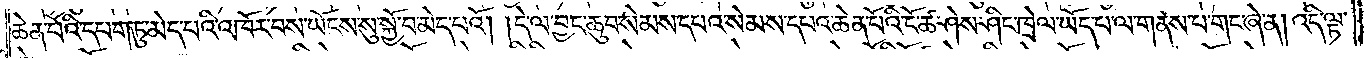ཆེན་པོའི་དཔག་ཏུ་མེད་པའི་འཁོར་བས་ཡོངས་སུ་སྐྱོ་བ་མེད་པའོ། །དེ་ལ་བྱང་ཆུབ་སེམས་དཔའ་སེམས་དཔའ་ཆེན་པོའི་ངོ་ཚ་ཤེས་ཤིང་ཁྲེལ་ཡོད་པ་ལ་གནས་པ་གང་ཞེ་ན། འདི་ལྟ་
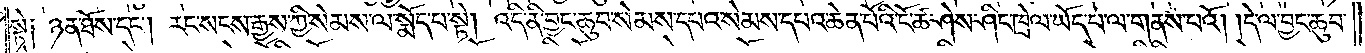སྟེ། ཉན་ཐོས་དང༌། རང་སངས་རྒྱས་ཀྱི་སེམས་ལ་སྨོད་པ་སྟེ། འདི་ནི་བྱང་ཆུབ་སེམས་དཔའ་སེམས་དཔའ་ཆེན་པོའི་ངོ་ཚ་ཤེས་ཤིང་ཁྲེལ་ཡོད་པ་ལ་གནས་པའོ། །དེ་ལ་བྱང་ཆུབ་
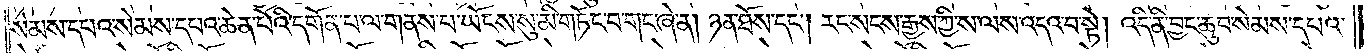སེམས་དཔའ་སེམས་དཔའ་ཆེན་པོའི་དགོན་པ་ལ་གནས་པ་ཡོངས་སུ་མི་བཏང་བ་གང་ཞེ་ན། ཉན་ཐོས་དང༌། རང་སངས་རྒྱས་ཀྱི་ས་ལས་འདའ་བ་སྟེ། འདི་ནི་བྱང་ཆུབ་སེམས་དཔའ་
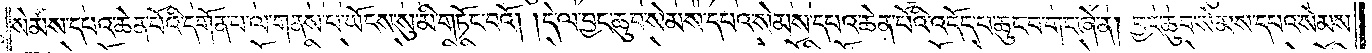སེམས་དཔའ་ཆེན་པོའི་དགོན་པ་ལ་གནས་པ་ཡོངས་སུ་མི་བཏང་བའོ། །དེ་ལ་བྱང་ཆུབ་སེམས་དཔའ་སེམས་དཔའ་ཆེན་པོའི་འདོད་པ་ཆུང་བ་གང་ཞེ་ན། བྱང་ཆུབ་སེམས་དཔའ་སེམས་
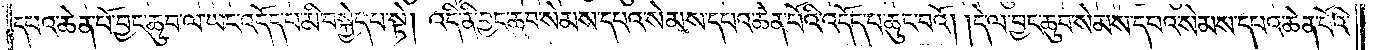དཔའ་ཆེན་པོ་བྱང་ཆུབ་ལ་ཡང་འདོད་པ་མི་བསྐྱེད་པ་སྟེ། འདི་ནི་བྱང་ཆུབ་སེམས་དཔའ་སེམས་དཔའ་ཆེན་པོའི་འདོད་པ་ཆུང་བའོ། །དེ་ལ་བྱང་ཆུབ་སེམས་དཔའ་སེམས་དཔའ་ཆེན་པོའི་
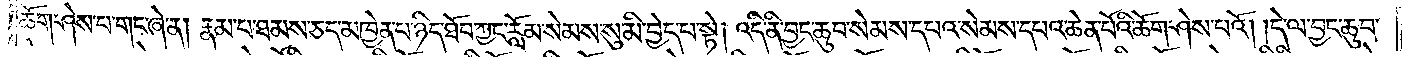ཆོག་ཤེས་པ་གང་ཞེ་ན། རྣམ་པ་ཐམས་ཅད་མཁྱེན་པ་ཉིད་ཐོབ་ཀྱང་རློམ་སེམས་སུ་མི་བྱེད་པ་སྟེ། འདི་ནི་བྱང་ཆུབ་སེམས་དཔའ་སེམས་དཔའ་ཆེན་པོའི་ཆོག་ཤེས་པའོ། །དེ་ལ་བྱང་ཆུབ་
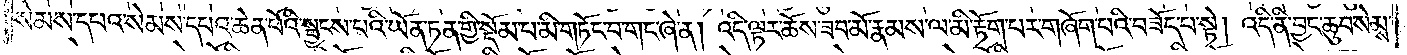སེམས་དཔའ་སེམས་དཔའ་ཆེན་པོའི་སྦྱངས་པའི་ཡོན་ཏན་གྱི་སྡོམ་པ་མི་གཏོང་བ་གང་ཞེ་ན། འདི་ལྟར་ཆོས་ཟབ་མོ་རྣམས་ལ་མི་རྟོག་པར་གཞོག་པའི་བཟོད་པ་སྟེ། འདི་ནི་བྱང་ཆུབ་སེམས་
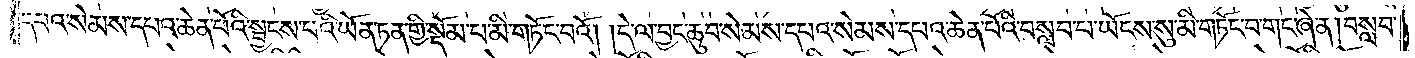དཔའ་སེམས་དཔའ་ཆེན་པོའི་སྦྱངས་པའི་ཡོན་ཏན་གྱི་སྡོམ་པ་མི་གཏོང་བའོ། །དེ་ལ་བྱང་ཆུབ་སེམས་དཔའ་སེམས་དཔའ་ཆེན་པོའི་བསླབ་པ་ཡོངས་སུ་མི་གཏོང་བ་གང་ཞེ་ན། བསླབ་
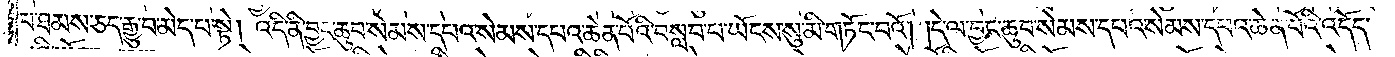པ་ཐམས་ཅད་རྒྱུ་བ་མེད་པ་སྟེ། འདི་ནི་བྱང་ཆུབ་སེམས་དཔའ་སེམས་དཔའ་ཆེན་པོའི་བསླབ་པ་ཡོངས་སུ་མི་བཏོང་བའོ། །དེ་ལ་བྱང་ཆུབ་སེམས་དཔའ་སེམས་དཔའ་ཆེན་པོའི་འདོད་
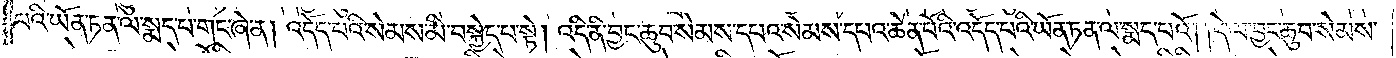པའི་ཡོན་ཏན་ལ་སྨད་པ་གང་ཞེ་ན། འདོད་པའི་སེམས་མི་བསྐྱེད་པ་སྟེ། འདི་ནི་བྱང་ཆུབ་སེམས་དཔའ་སེམས་དཔའ་ཆེན་པོའི་འདོད་པའི་ཡོན་ཏན་ལ་སྨད་པའོ། །དེ་ལ་བྱང་ཆུབ་སེམས་
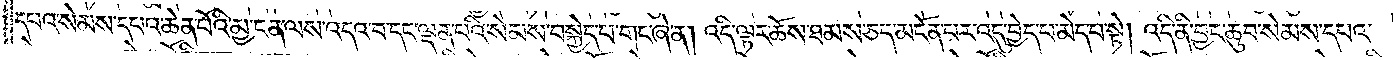དཔའ་སེམས་དཔའ་ཆེན་པོའི་མྱ་ངན་ལས་འདའ་བ་དང་ལྡན་པའི་སེམས་བསྐྱེད་པ་གང་ཞེ་ན། འདི་ལྟར་ཆོས་ཐམས་ཅད་མངོན་པར་འདུ་བྱེད་པ་མེད་པ་སྟེ། འདི་ནི་བྱང་ཆུབ་སེམས་དཔའ་
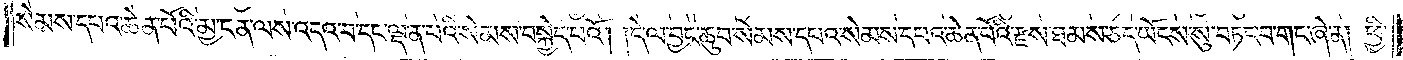སེམས་དཔའ་ཆེན་པོའི་མྱ་ངན་ལས་འདའ་བ་དང་ལྡན་པའི་སེམས་བསྐྱེད་པའོ། །དེ་ལ་བྱང་ཆུབ་སེམས་དཔའ་སེམས་དཔའ་ཆེན་པོའི་རྫས་ཐམས་ཅད་ཡོངས་སུ་བཏང་བ་གང་ཞེ་ན། ཕྱི་
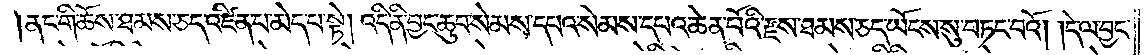ནང་གི་ཆོས་ཐམས་ཅད་འཛིན་པ་མེད་པ་སྟེ། འདི་ནི་བྱང་ཆུབ་སེམས་དཔའ་སེམས་དཔའ་ཆེན་པོའི་རྫས་ཐམས་ཅད་ཡོངས་སུ་བཏང་བའོ། །དེ་ལ་བྱང་
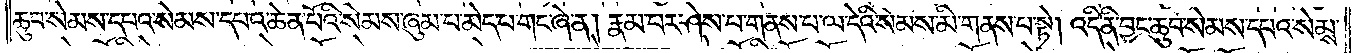ཆུབ་སེམས་དཔའ་སེམས་དཔའ་ཆེན་པོའི་སེམས་ཞུམ་པ་མེད་པ་གང་ཞེ་ན། རྣམ་པར་ཤེས་པ་གནས་པ་ལ་དེའི་སེམས་མི་གནས་པ་སྟེ། འདི་ནི་བྱང་ཆུབ་སེམས་དཔའ་སེམས་
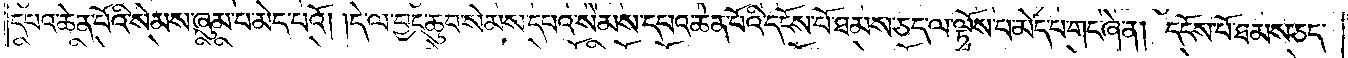དཔའ་ཆེན་པོའི་སེམས་ཞུམ་པ་མེད་པའོ། །དེ་ལ་བྱང་ཆུབ་སེམས་དཔའ་སེམས་དཔའ་ཆེན་པོའི་དངོས་པོ་ཐམས་ཅད་ལ་ལྟོས་པ་མེད་པ་གང་ཞེ་ན། དངོས་པོ་ཐམས་ཅད་
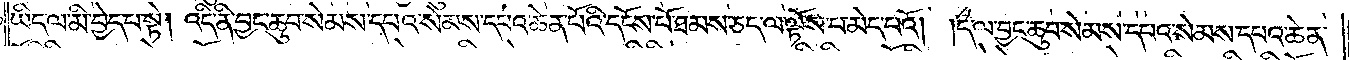ཡིད་ལ་མི་བྱེད་པ་སྟེ། འདི་ནི་བྱང་ཆུབ་སེམས་དཔའ་སེམས་དཔའ་ཆེན་པོའི་དངོས་པོ་ཐམས་ཅད་ལ་ལྟོས་པ་མེད་པའོ། །དེ་ལ་བྱང་ཆུབ་སེམས་དཔའ་སེམས་དཔའ་ཆེན་
